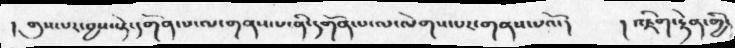། གུས་པར་བྱས་སྟེ་དགོན་པ་ལ་གནས་པ་ནི་དགོན་པ་ལ་ལེགས་པར་གནས་པའོ་།    ། འཇིག་རྟེན་གྱི་
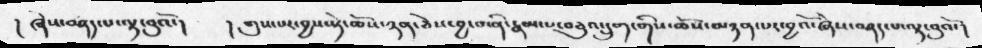། ཞེས་བཤད་པ་ལྟ་བུའོ་།  ། གུས་པར་བྱས་སྟེ་ཆོས་ཉན་ཅེས་བྱ་བ་ནི་རྣམ་པ་བཅུ་དྲུག་གིས་ཆོས་མཉན་པར་བྱའོ་ཞེས་བཤད་པ་ལྟ་བུའོ་།
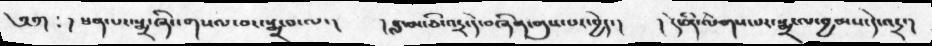༄༅། ༴ ། ཕན་པར་སྨྲ་ཞིང་གསལ་བར་སྨྲ་བ་ལ་།  ། བླ་མ་ཅི་འདྲ་དེ་བཞིན་གུས་པར་བྱེད་།  ། དེ་ནི་ལེགས་པར་སྨྲ་ལ་བྱམས་དེ་འདྲ་།
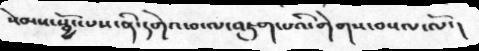སེམས་སྦྱོང་པས་ནི་དགེའ་བ་ལ་འཇུག་པའི་གེགས་བསལ་ལོ་།
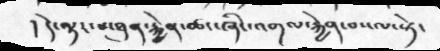། དེ་ལྟར་མཐུན་རྐྱེན་ཚང་ཞིང་འགལ་རྐྱེན་བསལ་ཏེ་
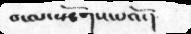བ་ལ་སྩོགས་པའོ་།
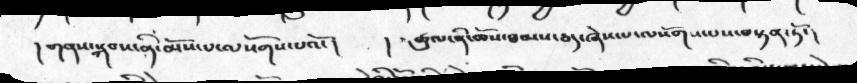། གནས་སྐབས་ནི་མོས་པ་ལསོགས་པའོ་།    ། ཚུལ་ནི་ཆོས་ཐམས་ཅད་ཞེས་པ་ལསོགས་པས་བསྟན་ཏོ་།
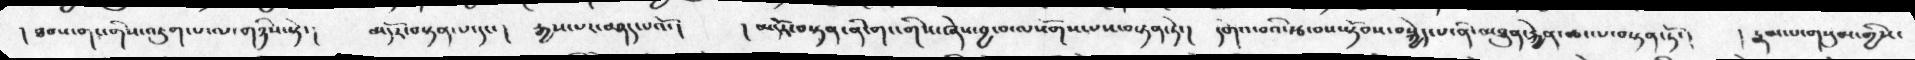།   ཐབས་གང་གིས་འཇུག་པ་ལ་གཉིས་སྟེ་།   མདོར་བསྟན་པ་དང་།   རྒྱས་པར་བཤད་པའོ་།   ། མདོར་བསྟན་ནི་གང་གིས་ཞེས་བྱ་བ་ལསོགས་པས་བསྟན་ཏེ་།   དགེའ་བའི་རྩ་བས་སྟོབས་བསྐྱེད་པ་ནི་མཐུན་རྐྱེན་ཚང་པ་བསྟན་ཏོ་།    ། རྣམ་པ་གསུམ་གྱིས་
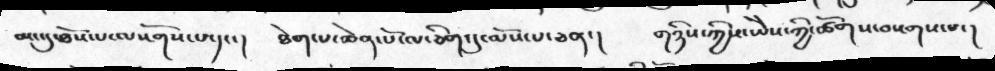མང་དུ་ཐོས་པ་ལསོགས་པ་དང་།    ཐེག་པ་ཆེན་པོ་ལ་ཅིག་དུ་མོས་པ་ཅན་།     གཉིས་ཀྱིས་ཡཻས་ཀྱི་ཚོགས་བསགས་པ་།
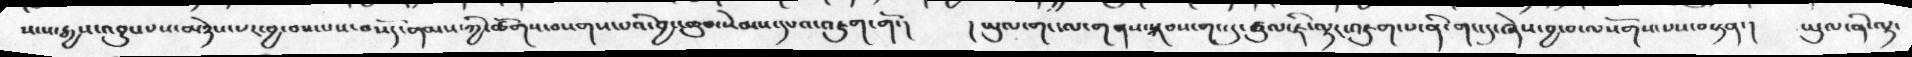སངས་རྒྱས་འབྱུང་པས་མཉེས་པར་བྱ་བས་པས་བསོད་ནམས་ཀྱི་ཚོགས་བསགས་པའི་བྱང་ཆུབ་སེམས་དཔའ་འཇུག་གོ་།    ། ཡུལ་གང་ལ་གནས་སྐབས་གང་དུ་ཚུལ་ཇི་ལྟར་འཇུག་པ་ནི་གང་དུ་ཞེས་བྱ་བ་ལསོགས་པས་བསྟན་།    ཡུལ་ནི་ལྟ་
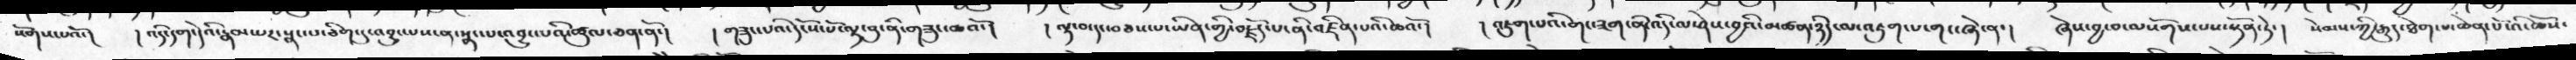སོགས་པའོ་།   ། འདི་དག་དེའི་རྣམ་པར་སྣང་པ་ཅིག་དུ་འབྱུང་པས་ན་སྣང་པ་འབྱུང་པའི་ཚུལ་ཅན་ནོ་།   ། གཟུང་པའི་དངོས་པོ་ལྟ་བུ་ནི་གཟུང་ཆའོ་།    ། ལྟ་བ་དང་བཅས་པ་ཡིན་གྱི་བརྗོད་པ་ནི་འཛིན་པའི་ཆའོ་།    ། འཇུག་པའི་གང་ཟག་ནི་འདི་ལ་ཤེས་བྱའི་མཚན་ཉིད་ལ་འཇུག་པ་གང་ཞེ་ན་།    ཞེས་བྱ་བ་ལསོགས་པས་སྟོན་ཏེ་།    སེམས་ཀྱི་རྒྱུད་ཐེག་པ་ཆེན་པོ་འི་ཆོས་
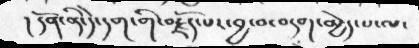། དོན་ནི་དེ་དག་གི་བརྗོད་པར་བྱ་བ་བདག་མྱེད་པ་ལ་
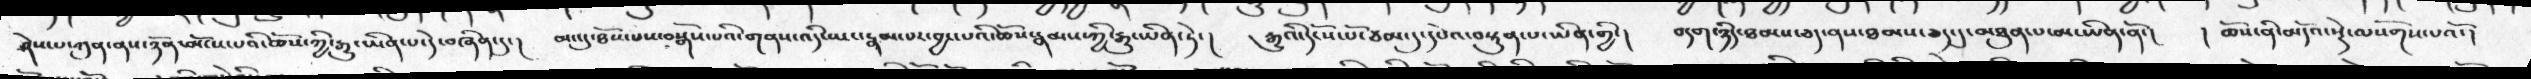ཤེས་པ་ཀུན་ནས་ཉོན་མོངས་པའི་ཆོས་ཀྱི་རྒྱུ་ཡིན་པ་དེ་བཞིན་དུ་།  མང་དུ་ཐོས་པས་བསྒོས་པའི་གནས་འདི་ཡང་རྣམ་པར་བྱང་པའི་ཆོས་རྣམས་ཀྱི་རྒྱུ་ཡིན་ཏེ་།  རྒྱུའི་དངོས་པོ་ཙམ་དུ་དཔེའ་བསྟུན་པ་ཡིན་གྱི་།  བདག་ཉིད་ཐམས་ཅད་ནས་ཐམས་ཅད་དུ་མཐུན་པ་མ་ཡིན་ནོ་།  ། ཆོས་ནི་མདོའ་སྡེ་ལསོགས་པའོ་།
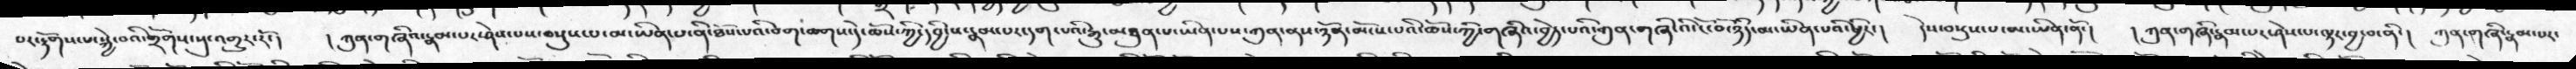པར་རྟོགས་པ་སྐྱེ་བའི་གྲོགས་སུ་འགྱུར་རོ་།   ། ཀུན་གཞིའ་རྣམ་པར་ཤེས་པས་བསྡུས་པ་མ་ཡིན་པ་ནི་ཐོས་པའི་བག་ཆགས་དེ་ཆོས་ཀྱི་དབྱིངས་རྣམ་པར་དག་པའི་རྒྱུ་མཐུན་པ་ཡིན་པས་ཀུན་ནས་ཉོན་མོངས་པའི་ཆོས་ཀྱི་གཞིའ་བྱེད་པའི་ཀུན་གཞི་འི་ངོ་བོ་ཉིད་མ་ཡིན་པའི་ཕྱིར་།   དེས་བསྡུས་པ་མ་ཡིན་ནོ་།    ། ཀུན་གཞི་རྣམ་པར་ཤེས་པ་ལྟར་བྱ་བ་ནི་།   ཀུན་གཞི་རྣམ་པར་
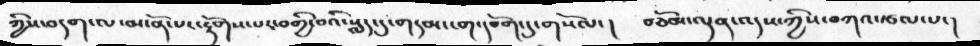ཀྱིས་བདག་ལ་མངོན་པར་རྟོགས་པར་བགྱི་བའི་སླད་དུ་གདམ་ངག་དབོག་དུ་གསོལ་།   བཅོམ་ལྡན་འདས་ཀྱིས་བཀའ་རྩལ་པ་།
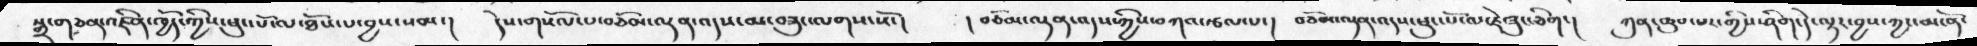སྒྲ་གཅན་འཛིན་ཁྱོད་ཀྱིས་ཕུང་པོ་ལ་ཐོས་པ་བྱས་སམ་།   དེས་གསོལ་པ་བཅོམ་ལྡན་འདས་མ་བཟུང་ལགས་སོ་།   ། བཅོམ་ལྡན་འདས་ཀྱིས་བཀའ་རྩལ་པ་།    བཅོམ་ལྡན་འདས་ཕུང་པོ་ལ་ཇེ་ཟུང་ཅིག་།   ཀུན་ཆུབ་པར་གྱིས་ཤིག་དེ་ལྟར་བྱས་ཀྱང་མངོན་
